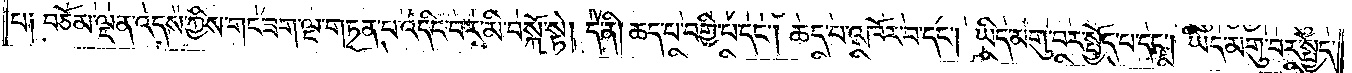པ། བཅོམ་ལྡན་འདས་ཀྱིས་གང་ཟག་ལྔ་གཏན་པ་འདིང་བར་མི་བསྐོ་སྟེ། དེ་ནི། ཆད་པ་བགྱི་པ་དང༌། ཆད་པ་འཁོར་བ་དང༌། ཡིད་མགུ་བར་སྤྱོད་པ་དང༌། ཡིད་མགུ་བར་སྤྱོད་
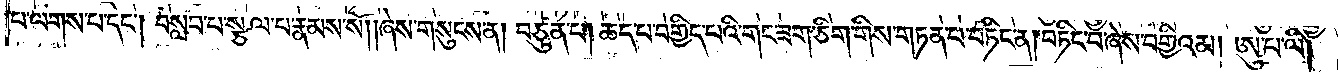པ་ལགས་པ་དང༌། བསླབ་པ་སྩལ་པ་རྣམས་སོ། །ཞེས་གསུངས་ན། བཙུན་པ། ཆད་པ་བགྱིད་པའི་གང་ཟག་ཅིག་གིས་གཏན་པ་བཏིང་ན། བཏིང་བ་ཞེས་བགྱིའམ། ཨུ་པ་ལི།
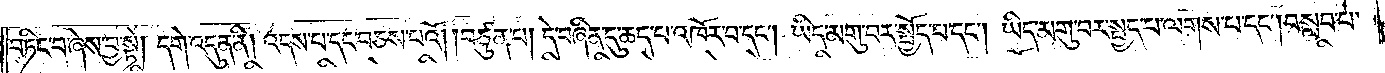བཏིང་བ་ཞེས་བྱ་སྟེ། དགེ་འདུན་ནི། འདས་པ་དང་བཅས་པའོ། །བཙུན་པ། དེ་བཞིན་དུ་ཆད་པ་འཁོར་བ་དང༌། ཡིད་མགུ་བར་སྤྱོད་པ་དང༌། ཡིད་མགུ་བར་སྤྱད་པ་ལགས་པ་དང༌། བསླབ་པ་
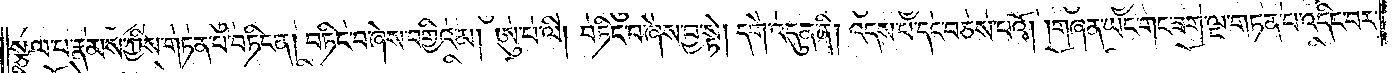སྩལ་པ་རྣམས་ཀྱིས་གཏན་པ་བཏིང་ན། བཏིང་བ་ཞེས་བགྱིའམ། ཨུ་པ་ལི། བཏིང་བ་ཞེས་བྱ་སྟེ། དགེ་འདུན་ནི། འདས་པ་དང་བཅས་པའོ། །གཞན་ཡང་གང་ཟག་ལྔ་གཏན་པ་འདིང་བར་
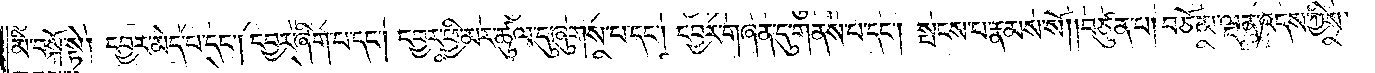མི་བསྐོ་སྟེ། དབྱར་མེད་པ་དང༌། དབྱར་ཞིག་པ་དང༌། དབྱར་ཕྱི་མར་ཚུལ་དུ་ཞུགས་པ་དང༌། དབྱར་གཞན་དུ་གནས་པ་དང༌། སྤངས་པ་རྣམས་སོ། །བཙུན་པ། བཅོམ་ལྡན་འདས་ཀྱིས་
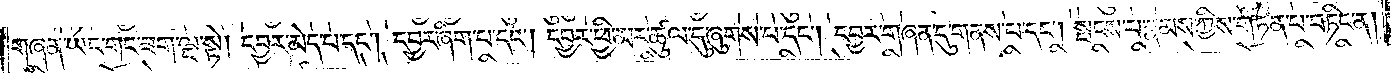གཞན་ཡང་གང་ཟག་ལྔ་སྟེ། དབྱར་མེད་པ་དང༌། དབྱར་ཞིག་པ་དང༌། དབྱར་ཕྱི་མར་ཚུལ་དུ་ཞུགས་པ་དང༌། དབྱར་གཞན་དུ་གནས་པ་དང༌། སྤངས་པ་རྣམས་ཀྱིས་གཏན་པ་བཏིང་ན།
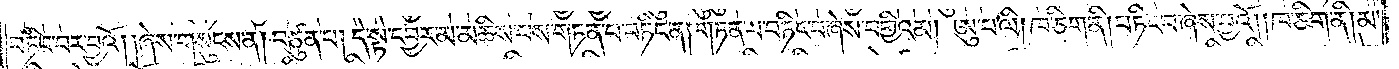བཏིང་བར་བྱའོ། །ཞེས་གསུངས་ན། བཙུན་པ། དེ་སྟེ་དབྱར་མ་མཆིས་པས་གཏན་པ་བཏིང་ན། གཏན་པ་བཏིང་བ་ཞེས་བགྱིའམ། ཨུ་པ་ལི། ཁ་ཅིག་ནི། བཏིང་བ་ཞེས་བྱའོ། །ཁ་ཅིག་ནི། མ་
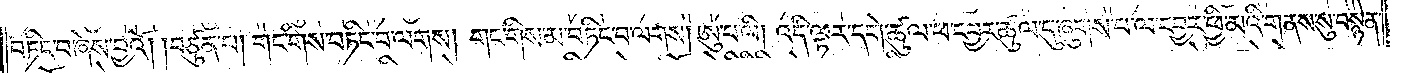བཏིང་བ་ཞེས་བྱའོ། །བཙུན་པ། གང་གིས་བཏིང་བ་ལགས། གང་གིས་མ་བཏིང་བ་ལགས། ཨུ་པ་ལི། འདི་ལྟར་དགེ་ཚུལ་ཕ་དབྱར་ཚུལ་དུ་ཞུགས་པ་ལ་དབྱར་ཕྱི་མའི་གནས་སུ་བསྙེན་
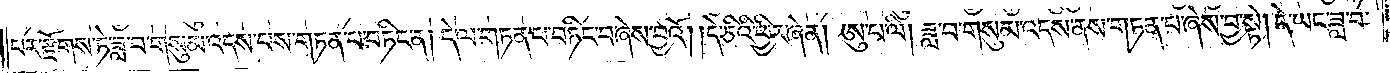པར་རྫོགས་ཏེ་ཟླ་བ་གསུམ་འདས་པས་གཏན་པ་བཏིང་ན། དེ་ལ་གཏན་པ་བཏིང་བ་ཞེས་བྱའོ། །དེ་ཅིའི་ཕྱིར་ཞེ་ན། ཨུ་པ་ལི། ཟླ་བ་གསུམ་འདས་ནས་གཏན་པ་ཞེས་བྱ་སྟེ། དེ་ཡང་ཟླ་བ་
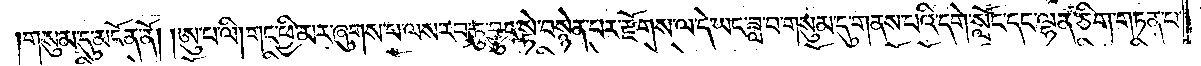གསུམ་དུ་མངོན་ནོ། །ཨུ་པ་ལི། གང་ཕྱི་མར་ཞུགས་པ་ལས་རབ་ཏུ་བྱུང་སྟེ་བསྙེན་པར་རྫོགས་ལ་དེ་ཡང་ཟླ་བ་གསུམ་དུ་གནས་པའི་དགེ་སློང་དང་ལྷན་ཅིག་གཏན་པ་
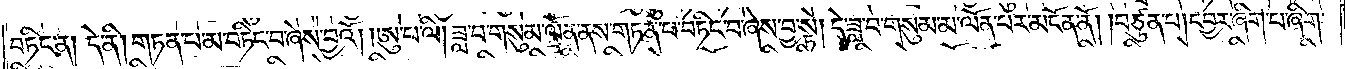བཏིང་ན། དེ་ནི། གཏན་པ་མ་བཏིང་བ་ཞེས་བྱའོ། །ཨུ་པ་ལི། ཟླ་བ་གསུམ་ལོན་ནས་གཏན་པ་བཏིང་བ་ཞེས་བྱ་སྟེ། དེ་ཟླ་བ་གསུམ་མ་ལོན་པར་མངོན་ནོ། །བཙུན་པ། དབྱར་ཞིག་པ་ཞིག་
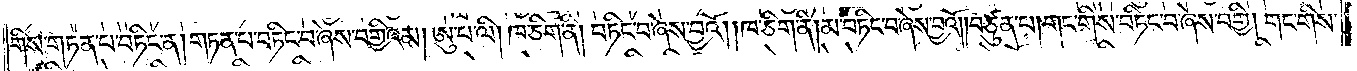གིས་གཏན་པ་བཏིང་ན། གཏན་པ་བཏིང་བ་ཞེས་བགྱིའམ། ཨུ་པ་ལི། ཁ་ཅིག་ནི། བཏིང་བ་ཞེས་བྱའོ། །ཁ་ཅིག་ནི། མ་བཏིང་བ་ཞེས་བྱའོ། །བཙུན་པ། གང་གིས་བཏིང་བ་ཞེས་བགྱི། གང་གིས་
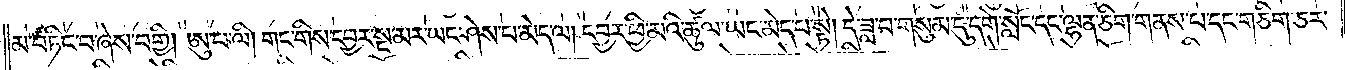མ་བཏིང་བ་ཞེས་བགྱི། ཨུ་པ་ལི། གང་གིས་དབྱར་སྔ་མར་ཡང་ཤེས་པ་མེད་ལ། དབྱར་ཕྱི་མའི་ཚུལ་ཡང་མེད་པ་སྟེ། དེ་ཟླ་བ་གསུམ་དུ་དགེ་སློང་དང་ལྷན་ཅིག་གནས་པ་དང་གཅིག་ཅར་
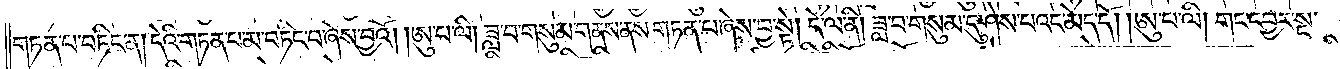གཏན་པ་བཏིང་ན། དེའི་གཏན་པ་མ་བཏིང་བ་ཞེས་བྱའོ། །ཨུ་པ་ལི། ཟླ་བ་གསུམ་གནས་ནས་གཏན་པ་ཞེས་བྱ་སྟེ། དེ་ལ་ནི། ཟླ་བ་གསུམ་དུ་ཤེས་པའང་མེད་དོ། །ཨུ་པ་ལི། གང་དབྱར་སྔ་
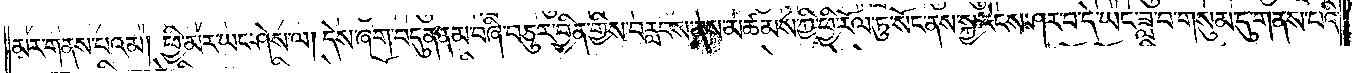མར་གནས་པའམ། ཕྱི་མར་ཡང་ཤེས་ལ། དེས་ཞག་བདུན་ནམ་བཞི་བཅུར་བྱིན་གྱིས་བརླབས་ནས་མཚམས་ཀྱི་ཕྱི་རོལ་ཏུ་སོང་ནས་སྐྱ་རེངས་ཤར་བ་དེ་ཡང་ཟླ་བ་གསུམ་དུ་གནས་པའི་
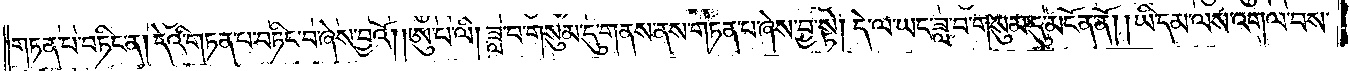གཏན་པ་བཏིང་ན། དེའི་གཏན་པ་བཏིང་བ་ཞེས་བྱའོ། །ཨུ་པ་ལི། ཟླ་བ་གསུམ་དུ་གནས་ནས་གཏན་པ་ཞེས་བྱ་སྟེ། དེ་ལ་ཡང་ཟླ་བ་གསུམ་དུ་མངོན་ནོ། །ཡིད་མ་ལས་འགལ་བས་
